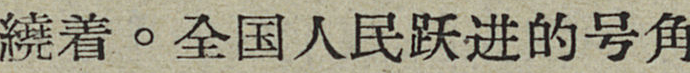繞着。全国人民跃进的号角
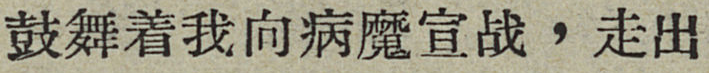鼓舞着我向病魔宣战，走出
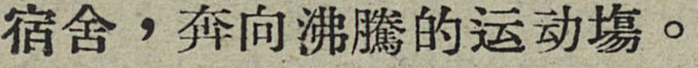宿舍，奔向沸騰的运动塲。
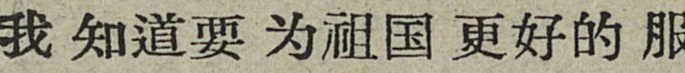我知道要为祖国更好的服
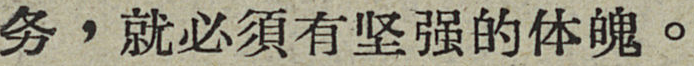务，就必須有坚强的体魄。
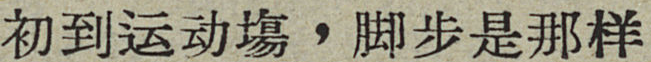初到运动塲，脚步是那样
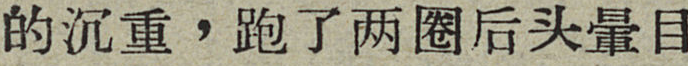的沉重，跑了两圈后头暈目
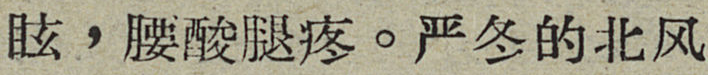眩，腰酸腿疼。严冬的北风
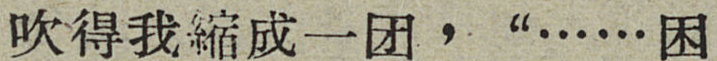吹得我縮成一团，“……困
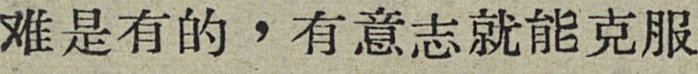难是有的，有意志就能克服
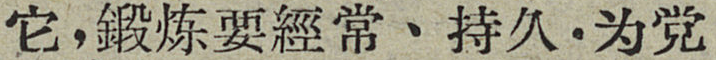它，鍛炼要經常、持久，为党
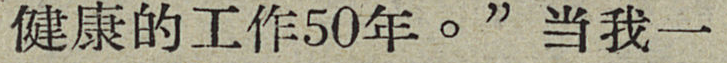健康的工作50年。”当我一
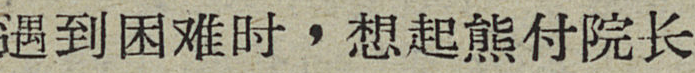遇到困难时，想起熊付院长
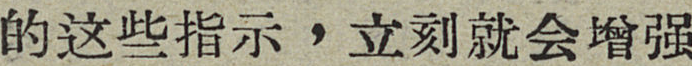的这些指示，立刻就会增强
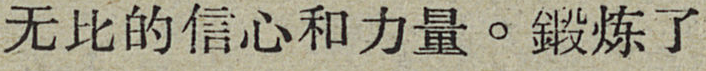五比的信心和力量。鍛炼了
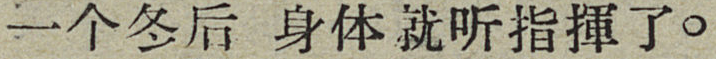一个冬后身体就听指揮了。
